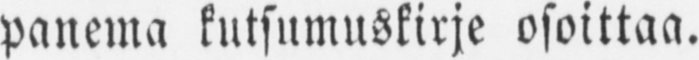panema kutsumuskirje osoittaa.
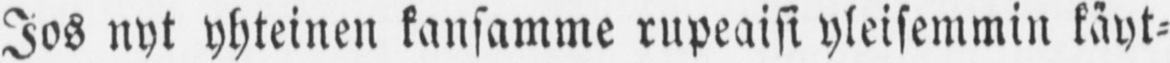Jos nyt yhteinen kansamme rupeaisi yleisemmin käyt-
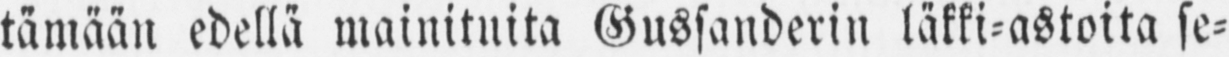tämään edellä mainituita Gussanderin läkki-astoita se-
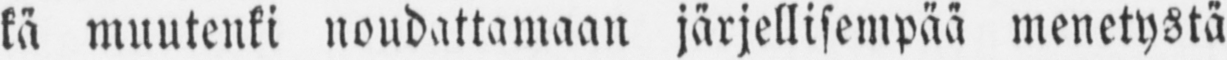kä muutenki noudattamaan järjellisempää menetystä
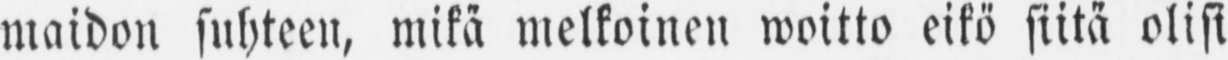maidon suhteen, mikä melkoinen woitto eikö siitä olisi
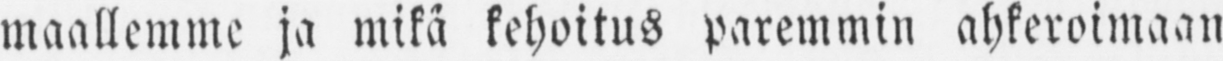maallemme ja mikä kehoitus paremmin ahkeroimaan
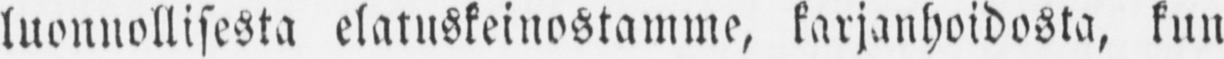luonnollisesta elatuskeinostamme, karjanhoidosta, kun
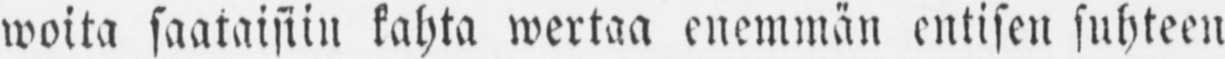woita saataisiin kahta wertaa enemmän entisen suhteen
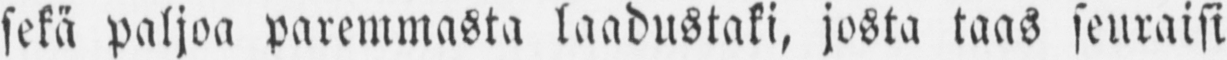sekä paljoa paremmasta laadustaki, josta taas seuraisi
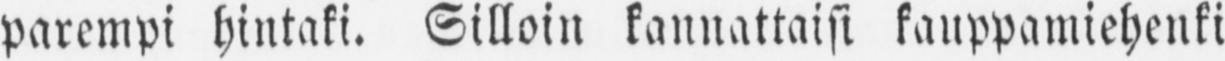parempi hintaki. Silloin kannattaisi kauppamiehenki
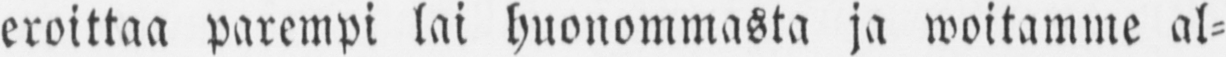eroittaa parempi lai huonommasta ja woitamme al-
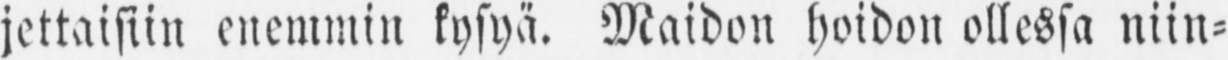jettaisiin enemmin kysyä. Maidon hoidon ollessa niin-
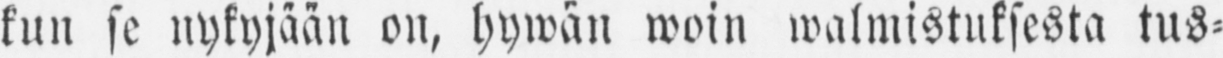kun se nykyjään on, hywän woin walmistuksesta tus-
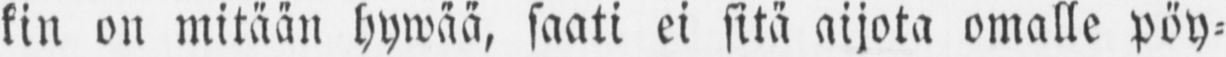kin on mitään hywää, saati ei sitä aijota omalle pöy-
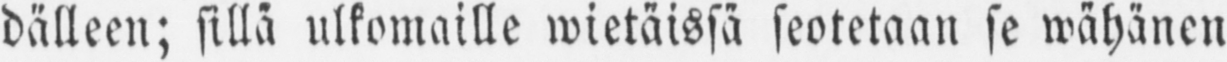dälleen; sillä ulkomaille wietäissä seotetaan se wähänen
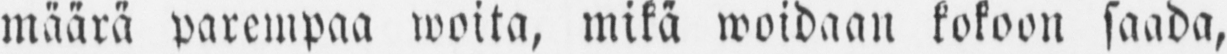määrä parempaa woita, mikä woidaan kokoon saada,
